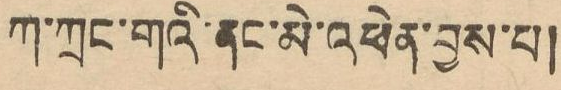ཀ་ཀྲང་གའི་ནང་མེ་འཕེན་བྱས་པ།
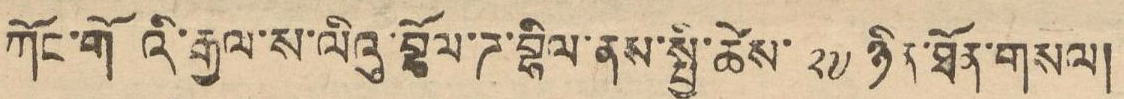ཀོང་གོའི་རྒྱལ་ས་ལིའུ་བྷོལ་ཌ་བྷིལ་ནས་སྤྱི་ཚེས་ ༢༧ ཉིན་ཐོན་གསལ།
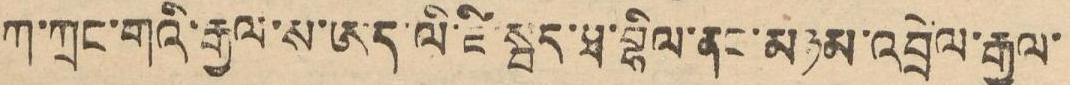ཀ་ཀྲང་གའི་རྒྱལ་ས་ཨད་ལི་ཛི་སྦད་ཐ་བྷིལ་ནང་མཉམ་འབྲེལ་རྒྱལ་
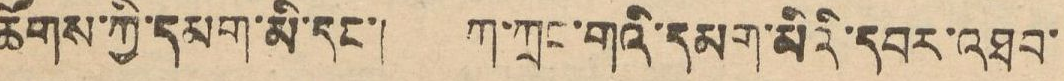ཚོགས་ཀྱི་དམག་མི་དང་། ཀ་ཀྲང་གའི་དམག་མིའི་དབར་འཐབ་
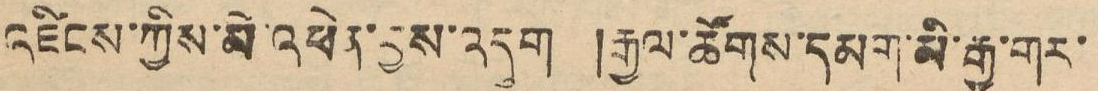འཛིངས་ཀྱིས་མི་འཕེན་བྱས་འདུག །རྒྱལ་ཚོགས་དམག་ནི་རྒྱ་གར་
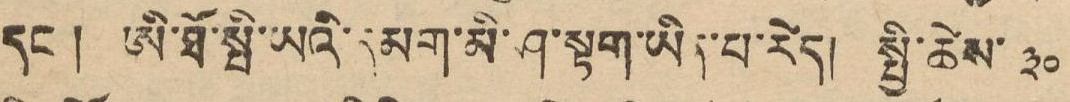དང་། ཨི་ཐོ་སྤི་ཡའི་དམག་མི་ཤ་སྟག་ཏིན་པ་རེད། སྤྱི་ཚེས་ ༣༠
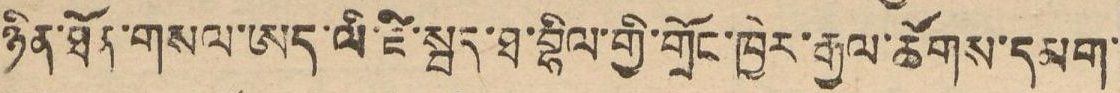ཉིན་ཐོན་གསལ་ཨད་ལི་ཛི་སྦད་ཐ་བྷིལ་གྱི་གྲོང་ཁྱེར་རྒྱལ་ཚོགས་དམག་
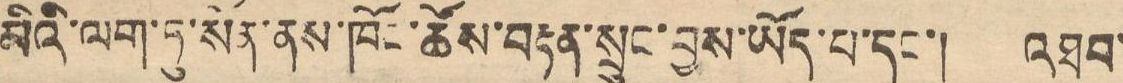མིའི་ལག་ཏུ་སོན་ནས་ཁོང་ཚོས་བརྟན་སྲུང་བྱས་ཡོད་པ་དང་། འཐབ་
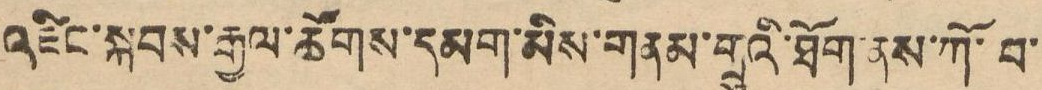འཛིང་སྐབས་རྒྱལ་ཚོགས་དམག་མིས་གནམ་གྲུའི་ཐོན་ནས་ཀོ་བ་
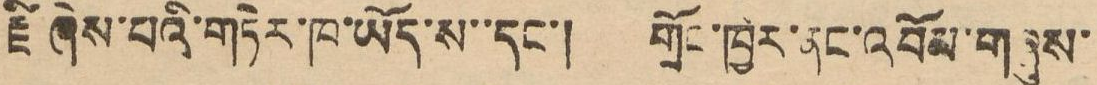རྗི ཞེས་པའི་གཏེར་ཁ་ཡོད་ས་་དང་། གྲོང་ཁྱེར་ནང་འབོམ་གཞུས་
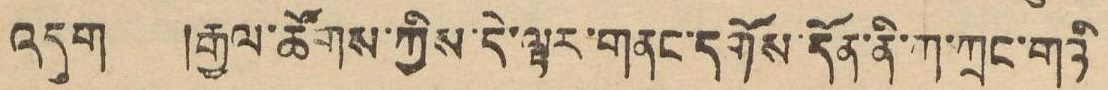འདུག །རྒྱལ་ཚོགས་ཀྱིས་དེ་ལྟར་གནང་དགོས་དོན་ནི་ཀ་ཀྲང་གའི
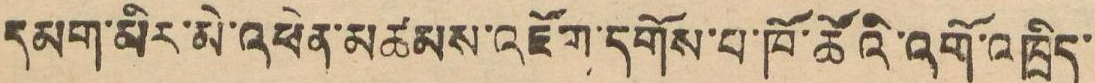དམག་མིར་མེ་འཕེན་མཚམས་འཇོག་དགོས་པ་ཁོ་ཚོའི་འགོ་འཁྲིད་
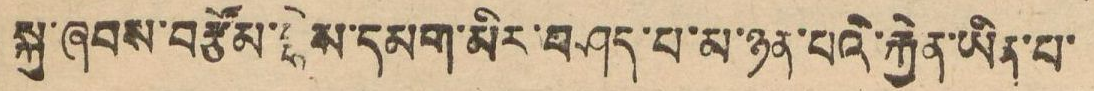སྐུ་ཞབས་བརྩོམ་བྷེས་དམག་མིར་བཤད་པ་མ་ཉན་པའི་རྐྱེན་ཡིན་པ་
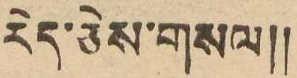རེད་ཅེས་གསལ།།
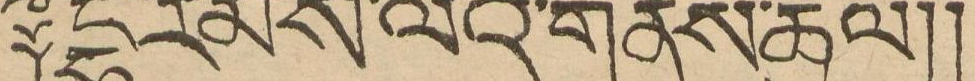༈དྷ་རམ་ས་ལའི་གནས་ཚུལ།།
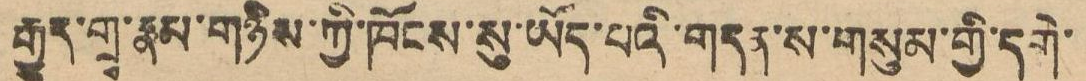རྒྱུད་གྲྭ་རྣམ་གཉིས་ཀྱི་ཁོངས་སུ་ཡོད་པའི་གདན་ས་གསུམ་གྱི་དགེ་
